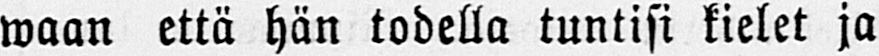waan että hän todella tuntisi kielet ja
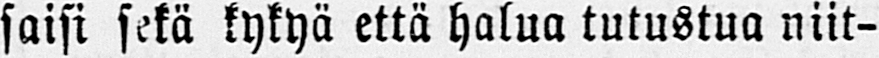saisi sekä kykyä että halua tutustua niit-
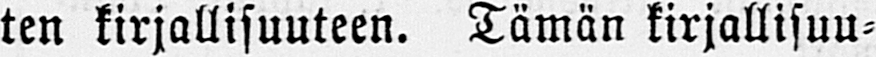ten kirjallisuuteen. Tämän kirjallisuu-
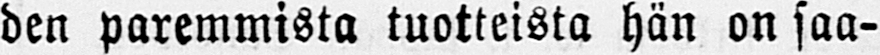den paremmista tuotteista hän on saa-
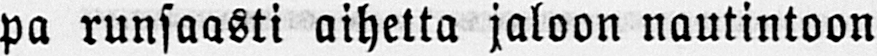pa runsaasti aihetta jaloon nautintoon
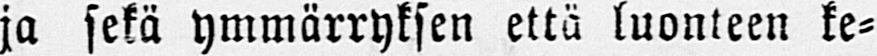ja sekä ymmärryksen että luonteen ke-
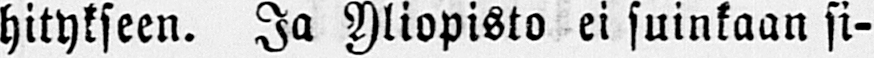hitykseen. Ja Yliopisto ei suinkaan si-
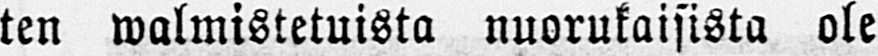ten walmistetuista nuorukaisista ole
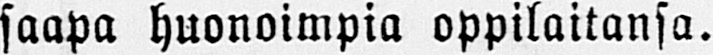saapa huonoimpia oppilaitansa.
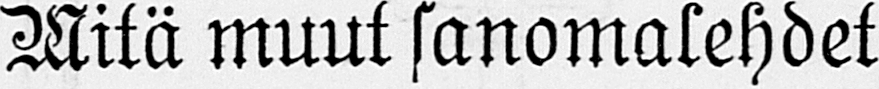Mitä muut sanomalehdet
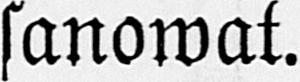sanowat.
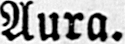Aura.
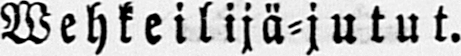Wehkeilijä-jutut.
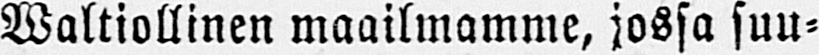Waltiollinen maailmamme, jossa suu-
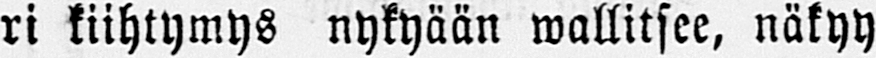ri kiihtymys nykyään wallitsee, näkyy
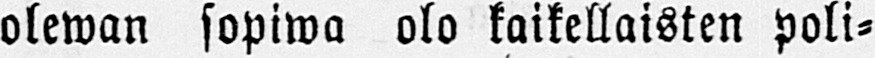olewan sopiwa olo kaikellaisten poli-
